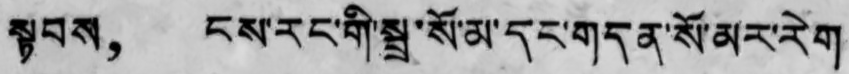སྟབས， ངས་རང་གི་སྦྲ་སོ་མ་དང་གདན་སོ་མར་རེག
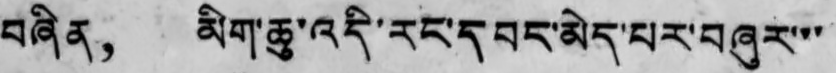བཞིན， མིག་ཆུ་འདི་རང་དབང་མེད་པར་བཞུར་་་་
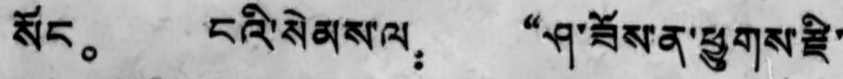སོང。 ངའི་སེམས་ལ： “ཤ་ཟོས་ན་ཕྱུགས་རྫི་
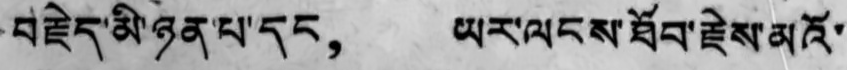བརྗེད་མི་ཉན་པ་དང， ཡར་ལངས་ཐོབ་རྗེས་མའོ་
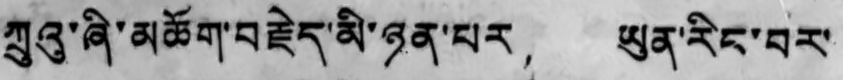ཀྲུའུ་ཞི་མཆོག་བརྗེད་མི་ཉན་པར， ཡུན་རིང་བར་
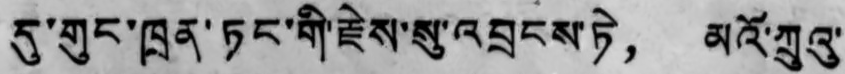དུ་གུང་ཁྲན་ཏང་གི་རྗེས་སུ་འབྲངས་ཏེ， མའོ་ཀྲུའུ་
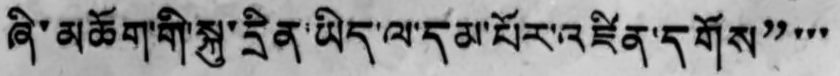ཞི་མཆོག་གི་སྐུ་དྲིན་ཡིད་ལ་དམ་པོར་འཛིན་དགོས”་་་
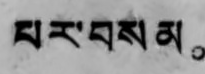པར་བསམ。
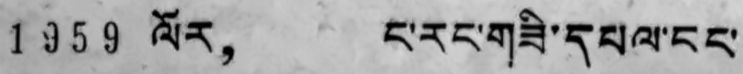1959 ལོར， ང་རང་གཟི་དཔལ་ངང་
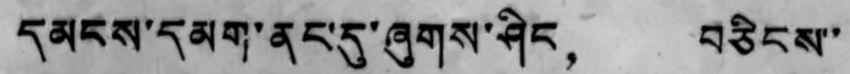དམངས་དམག་ནང་དུ་ཞུགས་ཤིང， བཅིངས་་
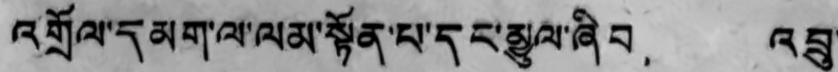འགྲོལ་དམག་ལ་ལམ་སྟོན་པ་དང་མྱུལ་ཞིབ， འབྲུ་
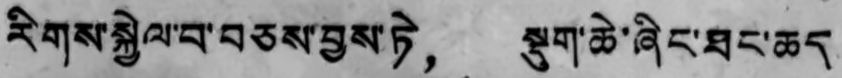རིགས་སྐྱེལ་བ་བཅས་བྱས་ཏེ， སྡུག་ཆེ་ཞིང་ཐང་ཆད
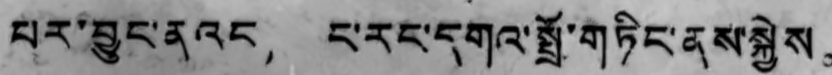པར་བྱུང་ནའང， ང་རང་དགའ་སྤྲོ་གཏིང་ནས་སྐྱེས。
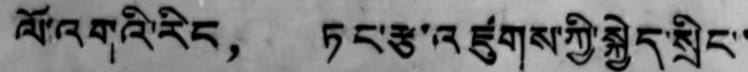ལོ་འགའི་རིང， ཏང་རྩ་འཛུགས་ཀྱི་སྐྱེད་སྲིང་
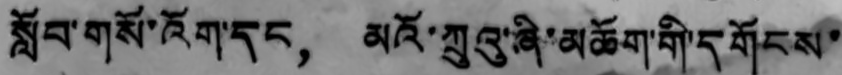སློབ་གསོ་འོག་དང， མའོ་ཀྲུའུ་ཞི་མཆོག་གི་དགོངས་
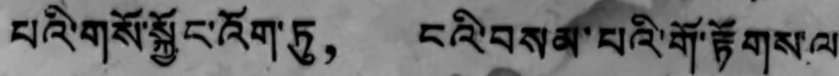པའི་གསོ་སྐྱོང་འོག་ཏུ， ངའི་བསམ་པའི་གོ་རྟོགས་ལ་
